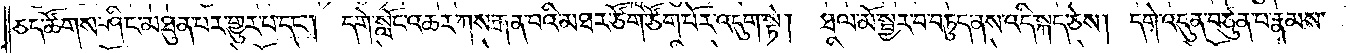ཅད་ཚོགས་ཤིང་མཐུན་པར་གྱུར་པ་དང༌། དགེ་སློང་འཆར་ཀས་རྒན་པའི་མཐར་ཙོག་ཙོག་པོར་འདུག་སྟེ། ཐལ་མོ་སྦྱར་བ་བཏུད་ནས་འདི་སྐད་ཅེས། དགེ་འདུན་བཙུན་པ་རྣམས་
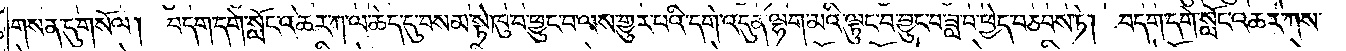གསན་དུ་གསོལ། བདག་དགེ་སློང་འཆར་ཀ་ལ་ཆེད་དུ་བསམ་སྟེ་ཁུ་བ་ཕྱུང་བ་ལས་གྱུར་པའི་དགེ་འདུན་ལྷག་མའི་ལྟུང་བ་བྱུང་བ་ཟླ་བ་ཕྱེད་བཅབས་ཏེ། བདག་དགེ་སློང་འཆར་ཀས་
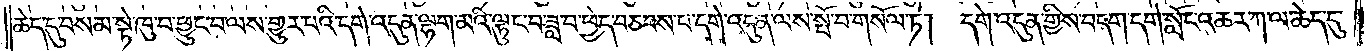ཆེད་དུ་བསམ་སྟེ་ཁུ་བ་ཕྱུང་བ་ལས་གྱུར་པའི་དགེ་འདུན་ལྷག་མའི་ལྟུང་བ་ཟླ་བ་ཕྱེད་བཅབས་པ་དགེ་འདུན་ལས་སྤོ་བ་གསོལ་ཏེ། དགེ་འདུན་གྱིས་བདག་དགེ་སློང་འཆར་ཀ་ལ་ཆེད་དུ་
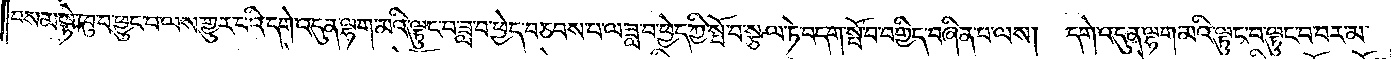བསམ་སྟེ་ཁུ་བ་ཕྱུང་བ་ལས་གྱུར་པའི་དགེ་འདུན་ལྷག་མའི་ལྟུང་བ་ཟླ་བ་ཕྱེད་བཅབས་པ་ལ་ཟླ་བ་བྱེད་ཀྱི་སྤོ་བ་སྩལ་ཏེ་བདག་སྤོ་བ་བགྱིད་བཞིན་པ་ལས། དགེ་འདུན་ལྷག་མའི་ལྟུང་བ་ལྟུང་བ་བར་མ་
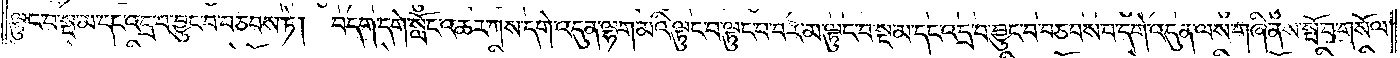ལྟུང་བ་སྔ་མ་དང་འདྲ་བ་བྱུང་བ་བཅབས་ཏེ། བདག་དགེ་སློང་འཆར་ཀ་ས་དགེ་འདུན་ལྷག་མའི་ལྟུང་བ་ལྟུང་བ་བར་མ་ལྟུང་བ་སྔ་མ་དང་འདྲ་བ་བྱུང་བ་བཅབས་པ་དགེ་འདུན་ལས་གཞི་ནས་སྤོ་བ་གསོལ་
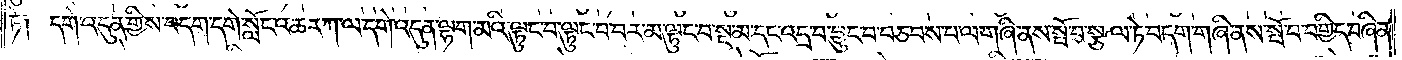ཏེ༑ དགེ་འདུན་གྱིས་བདག་དགེ་སློང་འཆར་ཀ་ལ་དགེ་འདུན་ལྷག་མའི་ལྟུང་བ་ལྟུང་བ་བར་མ་ལྟུང་བ་སྔ་མ་དང་འདྲ་བ་བྱུང་བ་བཅབས་པ་ལ་གཞི་ནས་སྤོ་བ་སྩལ་ཏེ་བདག་གཞི་ནས་སྤོ་བ་བགྱིད་བཞིན་
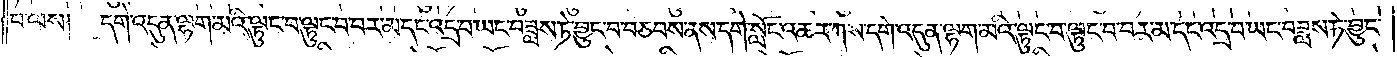པ་ལས། དགེ་འདུན་ལྷག་མའི་ལྟུང་བ་ལྟུང་བ་བར་མ་དང་འདྲ་བ་ཡང་བཟླས་ཏེ་བྱུང་བ་བཅབས་ནས་དགེ་སློང་འཆར་ཀས་དགེ་འདུན་ལྷག་མའི་ལྟུང་བ་ལྟུང་བ་བར་མ་དང་འདྲ་བ་ཡང་བཟླས་ཏེ་བྱུང་
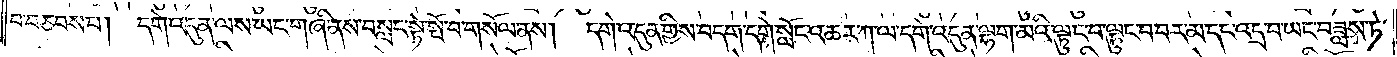བ་བཅབས་པ། དགེ་འདུན་ལས་ཡང་གཞི་ནས་བསླང་སྟེ་སྤོ་བ་གསོལ་ནས། དགེ་འདུན་གྱིས་བདག་དགེ་སློང་འཆར་ཀ་ལ་དགེ་འདུན་ལྷག་མའི་ལྟུང་བ་ལྟུང་བ་བར་མ་དང་འདྲ་བ་ཡང་བཟླས་ཏེ་
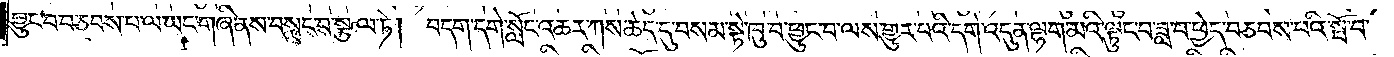བྱུང་བ་བཅབས་པ་ལ་ཡང་གཞི་ནས་བསླང་བ་སྩལ་ཏེ། བདག་དགེ་སློང་འཆར་ཀས་ཆེད་དུ་བསམ་སྟེ་ཁུ་བ་ཕྱུང་བ་ལས་གྱུར་པའི་དགེ་འདུན་ལྷག་མའི་ལྟུང་བ་ཟླ་བ་ཕྱེད་བཅབས་པའི་སྤོ་བ་
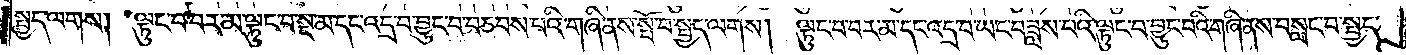སྤྱད་ལགས། ལྟུང་བ་བར་མ་ལྟུང་བ་སྔ་མ་དང་འདྲ་བ་བྱུང་བ་བཅབས་པའི་གཞི་ནས་སྤོ་བ་སྤྱད་ལགས། ལྟུང་བ་བར་མ་དང་འདྲ་བ་ཡང་བཟླས་པའི་ལྟུང་བ་བྱུང་བའི་གཞི་ནས་བསླང་བ་སྤྱད་
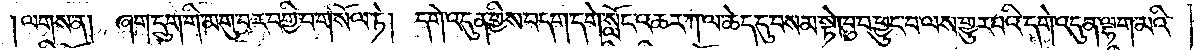ལགས་ན། ཞག་དྲུག་གི་མགུ་བར་བགྱི་བ་གསོལ་ཏེ། དགེ་འདུན་གྱིས་བདག་དགེ་སློང་འཆར་ཀ་ལ་ཆེད་དུ་བསམ་སྟེ་ཁུ་བ་ཕྱུང་བ་ལས་གྱུར་པའི་དགེ་འདུན་ལྷག་མའི་
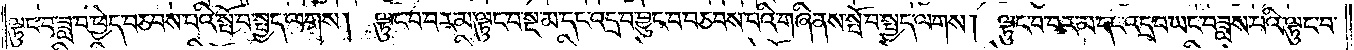ལྟུང་བ་ཟླ་བ་ཕྱེད་བཅབས་པའི་སྤོ་བ་སྤྱད་ལགས། ལྟུང་བ་བར་མ་ལྟུང་བ་སྔ་མ་དང་འདྲ་བ་བྱུང་བ་བཅབས་པའི་གཞི་ནས་སྤོ་བ་སྤྱད་ལགས། ལྟུང་བ་བར་མ་དང་འདྲ་བ་ཡང་བཟླས་པའི་ལྟུང་བ་
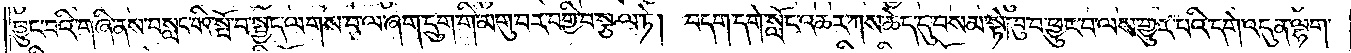བྱུང་བའི་གཞི་ནས་བསླང་བའི་སྤོ་བ་སྤྱད་ལགས་པ་ལ་ཞག་དྲུག་གི་མགུ་བར་བགྱི་བ་སྩལ་ཏེ། བདག་དགེ་སློང་འཆར་ཀས་ཆེད་དུ་བསམ་སྟེ་ཁུ་བ་ཕྱུང་བ་ལས་གྱུར་པའི་དགེ་འདུན་ལྷག་
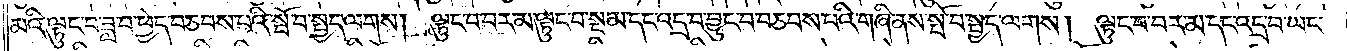མའི་ལྟུང་བ་ཟླ་བ་ཕྱེད་བཅབས་པའི་སྤོ་བ་སྤྱད་ལགས། ལྟུང་བ་བར་མ་ལྟུང་བ་སྔ་མ་དང་འདྲ་བ་བྱུང་བ་བཅབས་པའི་གཞི་ནས་སྤོ་བ་སྤྱད་ལགས། ལྟུང་བ་བར་མ་དང་འདྲ་བ་ཡང་
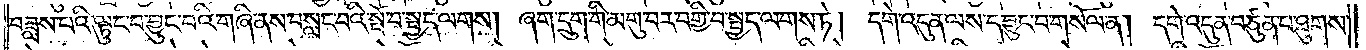བཟླས་པའི་ལྟུང་བ་བྱུང་བའི་གཞི་ནས་བསླང་བའི་སྤོ་བ་སྤྱད་ལགས། ཞག་དྲུག་གི་མགུ་བར་བགྱི་བ་སྤྱད་ལགས་ཏེ། དགེ་འདུན་ལས་དབྱུང་བ་གསོལ་ན། དགེ་འདུན་བཙུན་པ་ཐུགས་
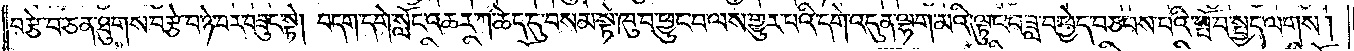བརྩེ་བ་ཅན་ཐུགས་བརྩེ་བ་ཉེ་བར་བཟུང་སྟེ། བདག་དགེ་སློང་འཆར་ཀ་ཆེད་དུ་བསམ་སྟེ་ཁུ་བ་ཕྱུང་བ་ལས་གྱུར་པའི་དགེ་འདུན་ལྷག་མའི་ལྟུང་བ་ཟླ་བ་ཕྱེད་བཅབས་པའི་སྤོ་བ་སྤྱད་ལགས།
